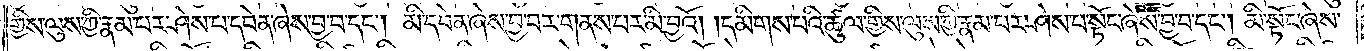གྱིས་ལུས་ཀྱི་རྣམ་པར་ཤེས་པ་དབེན་ཞེས་བྱ་བ་དང༌། མི་དབེན་ཞེས་བྱ་བར་གནས་པར་མི་བྱའོ། །དམིགས་པའི་ཚུལ་གྱིས་ལུས་ཀྱི་རྣམ་པར་ཤེས་པ་སྟོང་ཞེས་བྱ་བ་དང༌། མི་སྟོང་ཞེས་
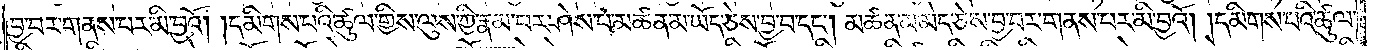བྱ་བར་གནས་པར་མི་བྱའོ། །དམིགས་པའི་ཚུལ་གྱིས་ལུས་ཀྱི་རྣམ་པར་ཤེས་པ་མཚན་མ་ཡོད་ཅེས་བྱ་བ་དང༌། མཚན་མ་མེད་ཅེས་བྱ་བར་གནས་པར་མི་བྱའོ། །དམིགས་པའི་ཚུལ་
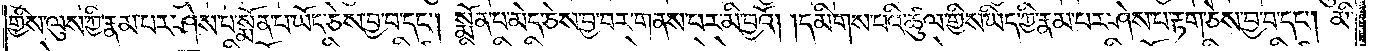གྱིས་ལུས་ཀྱི་རྣམ་པར་ཤེས་པ་སྨོན་པ་ཡོད་ཅེས་བྱ་བ་དང༌། སྨོན་པ་མེད་ཅེས་བྱ་བར་གནས་པར་མི་བྱའོ། །དམིགས་པའི་ཚུལ་གྱིས་ཡིད་ཀྱི་རྣམ་པར་ཤེས་པ་རྟག་ཅེས་བྱ་བ་དང༌། མི་
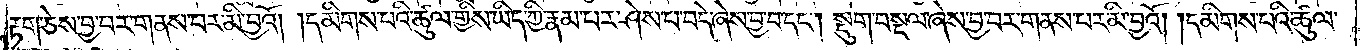རྟག་ཅེས་བྱ་བར་གནས་པར་མི་བྱའོ། །དམིགས་པའི་ཚུལ་གྱིས་ཡིད་ཀྱི་རྣམ་པར་ཤེས་པ་བདེ་ཞེས་བྱ་བ་དང༌། སྡུག་བསྔལ་ཞེས་བྱ་བར་གནས་པར་མི་བྱའོ། །དམིགས་པའི་ཚུལ་
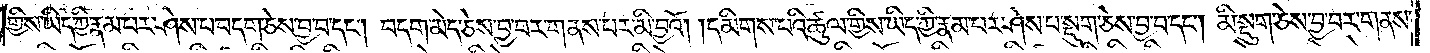གྱིས་ཡིད་ཀྱི་རྣམ་པར་ཤེས་པ་བདག་ཅེས་བྱ་བ་དང༌། བདག་མེད་ཅེས་བྱ་བར་གནས་པར་མི་བྱའོ། །དམིགས་པའི་ཚུལ་གྱིས་ཡིད་ཀྱི་རྣམ་པར་ཤེས་པ་སྡུག་ཅེས་བྱ་བ་དང༌། མི་སྡུག་ཅེས་བྱ་བར་གནས་
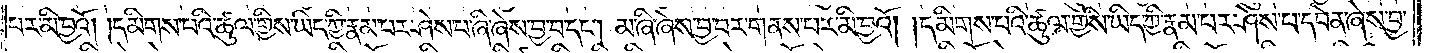པར་མི་བྱའོ། །དམིགས་པའི་ཚུལ་གྱིས་ཡིད་ཀྱི་རྣམ་པར་ཤེས་པ་ཞི་ཞེས་བྱ་བ་དང༌། མ་ཞི་ཞེས་བྱ་བར་གནས་པར་མི་བྱའོ། དམིགས་པའི་ཚུལ་གྱིས་ཡིད་ཀྱི་རྣམ་པར་ཤེས་པ་དབེན་ཞེས་བྱ་
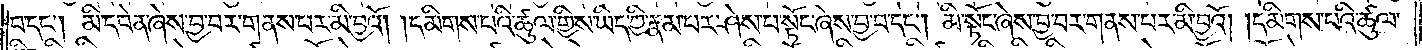བ་དང༌། མི་དབེན་ཞེས་བྱ་བར་གནས་པར་མི་བྱའོ། །དམིགས་པའི་ཚུལ་གྱིས་ཡིད་ཀྱི་རྣམ་པར་ཤེས་པ་སྟོང་ཞེས་བྱ་བ་དང༌། མི་སྟོང་ཞེས་བྱ་བར་གནས་པར་མི་བྱའོ། །དམིགས་པའི་ཚུལ་
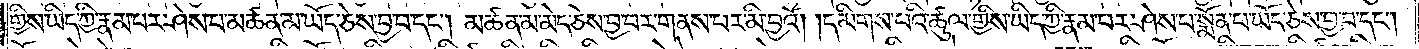གྱིས་ཡིད་ཀྱི་རྣམ་པར་ཤེས་པ་མཚན་མ་ཡོད་ཅེས་བྱ་བ་དང༌། མཚན་མ་མེད་ཅེས་བྱ་བར་གནས་པར་མི་བྱའོ། །དམིགས་པའི་ཚུལ་གྱིས་ཡིད་ཀྱི་རྣམ་པར་ཤེས་པ་སྨོན་པ་ཡོད་ཅེས་བྱ་བ་དང༌།
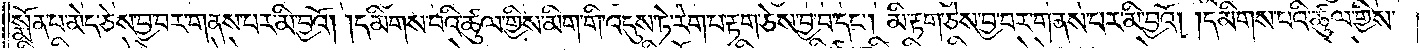སྨོན་པ་མེད་ཅེས་བྱ་བར་གནས་པར་མི་བྱའོ། །དམིགས་པའི་ཚུལ་གྱིས་མིག་གི་འདུས་ཏེ་རེག་པ་རྟག་ཅེས་བྱ་བ་དང༌། མི་རྟག་ཅེས་བྱ་བར་གནས་པར་མི་བྱའོ། །དམིགས་པའི་ཚུལ་གྱིས་
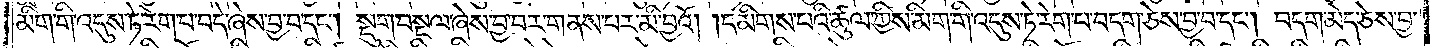མིག་གི་འདུས་ཏེ་རེག་པ་བདེ་ཞེས་བྱ་བ་དང༌། སྡུག་བསྔལ་ཞེས་བྱ་བར་གནས་པར་མི་བྱའོ། །དམིགས་པའི་ཚུལ་གྱིས་མིག་གི་འདུས་ཏེ་རེག་པ་བདག་ཅེས་བྱ་བ་དང༌། བདག་མེད་ཅེས་བྱ་
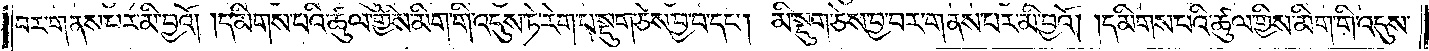བར་གནས་པར་མི་བྱའོ། །དམིགས་པའི་ཚུལ་གྱིས་མིག་གི་འདུས་ཏེ་རེག་པ་སྡུག་ཅེས་བྱ་བ་དང༌། མི་སྡུག་ཅེས་བྱ་བར་གནས་པར་མི་བྱའོ། །དམིགས་པའི་ཚུལ་གྱིས་མིག་གི་འདུས་
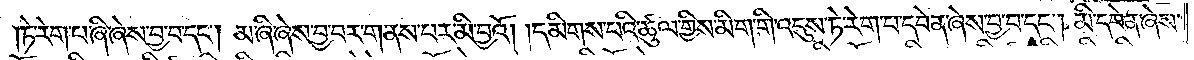ཏེ་རེག་པ་ཞི་ཞེས་བྱ་བ་དང༌། མ་ཞི་ཞེས་བྱ་བར་གནས་པར་མི་བྱའོ། །དམིགས་པའི་ཚུལ་གྱིས་མིག་གི་འདུས་ཏེ་རེག་པ་དབེན་ཞེས་བྱ་བ་དང༌། མི་དབེན་ཞེས་
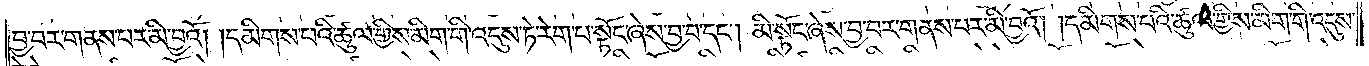བྱ་བར་གནས་པར་མི་བྱའོ། །དམིགས་པའི་ཚུལ་གྱིས་མིག་གི་འདུས་ཏེ་རེག་པ་སྟོང་ཞེས་བྱ་བ་དང༌། མི་སྟོང་ཞེས་བྱ་བར་གནས་པར་མི་བྱའོ། །དམིགས་པའི་ཚུལ་གྱིས་མིག་གི་འདུས་
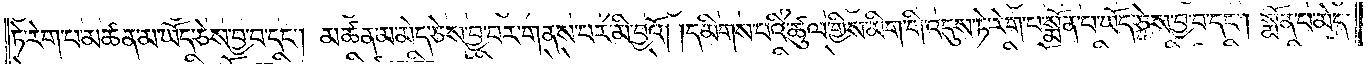ཏེ་རེག་པ་མཚན་མ་ཡོད་ཅེས་བྱ་བ་དང༌། མཚན་མ་མེད་ཅེས་བྱ་བར་གནས་པར་མི་བྱའོ། །དམིགས་པའི་ཚུལ་གྱིས་མིག་གི་འདུས་ཏེ་རེག་པ་སྨོན་པ་ཡོད་ཅེས་བྱ་བ་དང༌། སྨོན་པ་མེད་
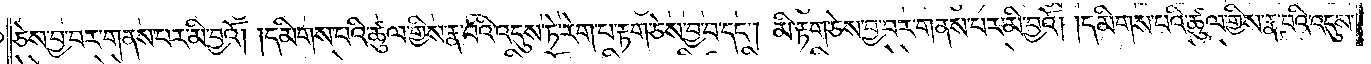ཅེས་བྱ་བར་གནས་པར་མི་བྱའོ། །དམིགས་པའི་ཚུལ་གྱིས་རྣ་བའི་འདུས་ཏེ་རེག་པ་རྟག་ཅེས་བྱ་བ་དང༌། མི་རྟག་ཅེས་བྱ་བར་གནས་པར་མི་བྱའོ། །དམིགས་པའི་ཚུལ་གྱིས་རྣ་བའི་འདུས་
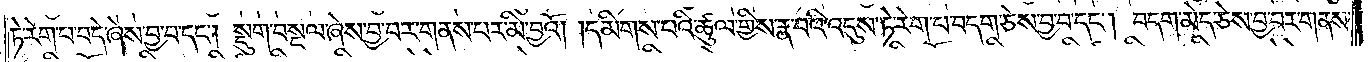ཏེ་རེག་པ་བདེ་ཞེས་བྱ་བ་དང༌། སྡུག་བསྔལ་ཞེས་བྱ་བར་གནས་པར་མི་བྱའོ། །དམིགས་པའི་ཚུལ་གྱིས་རྣ་བའི་འདུས་ཏེ་རེག་པ་བདག་ཅེས་བྱ་བ་དང༌། བདག་མེད་ཅེས་བྱ་བར་གནས་
